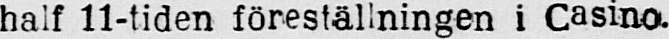half 11-tiden föreställningen i Casino.
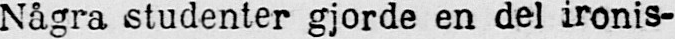Några studenter gjorde en del ironis-
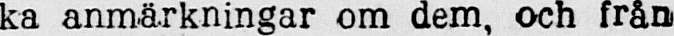ka anmärkningar om dem, och från
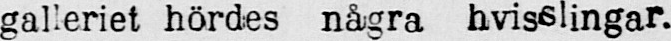galleriet hördes några hvisslingar.
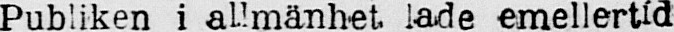Publiken i allmänhet lade emellertid
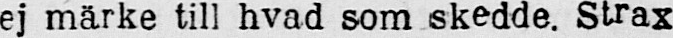ej märke till hvad som skedde. Strax
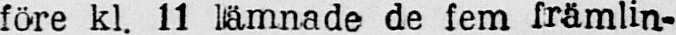före kl. 11 lämnade de fem främlin-
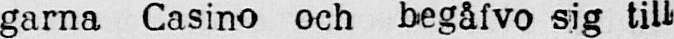garna Casino och hegåfvo sig till
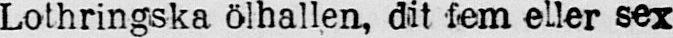Lothringska ölhallen, dit fem eller sex
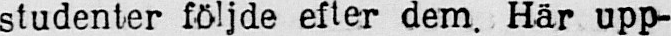studenter följde efter dem. Här upp-
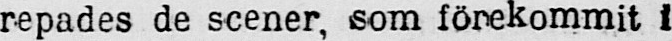repades de scener, som förekommit i
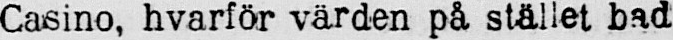Casino, hvarför värden på stället bad
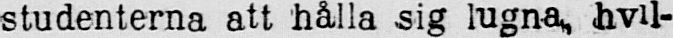studenterna att hålla sig lugna, hvil-
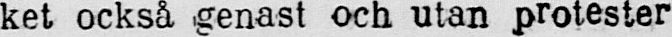ket också genast och utan protester
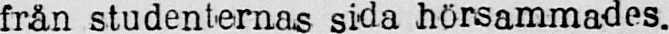från studenternas sida hörsammades.
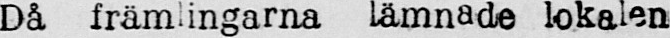Då främlingarna lämnade lokalen
